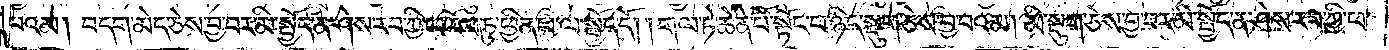བའམ། བདག་མེད་ཅེས་བྱ་བར་མི་སྤྱོད་ན་ཤེས་རབ་ཀྱི་ཕ་རོལ་ཏུ་ཕྱིན་པ་ལ་སྤྱོད་དོ། །གལ་ཏེ་ཆེན་པོ་སྟོང་པ་ཉིད་སྡུག་ཅེས་བྱ་བའམ། མི་སྡུག་ཅེས་བྱ་བར་མི་སྤྱོད་ན་ཤེས་རབ་ཀྱི་ཕ་
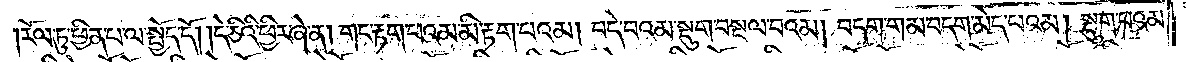རོལ་ཏུ་ཕྱིན་པ་ལ་སྤྱོད་དོ། །དེ་ཅིའི་ཕྱིར་ཞེ་ན། གང་རྟག་པའམ་མི་རྟག་པའམ། བདེ་བའམ་སྡུག་བསྔལ་བའམ། བདག་གམ་བདག་མེད་པའམ། སྡུག་པའམ་
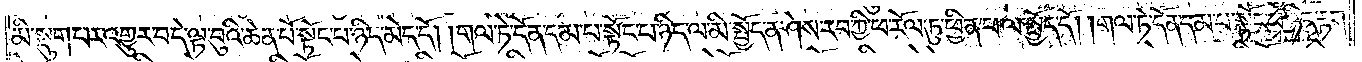མི་སྡུག་པར་འགྱུར་བ་དེ་ལྟ་བུའི་ཆེན་པོ་སྟོང་པ་ཉིད་མེད་དོ། །གལ་ཏེ་དོན་དམ་པ་སྟོང་པ་ཉིད་ལ་མི་སྤྱོད་ན་ཤེས་རབ་ཀྱི་ཕ་རོལ་ཏུ་ཕྱིན་པ་ལ་སྤྱོད་དོ། །གལ་ཏེ་དོན་དམ་པ་སྟོང་པ་ཉིད་རྟག་
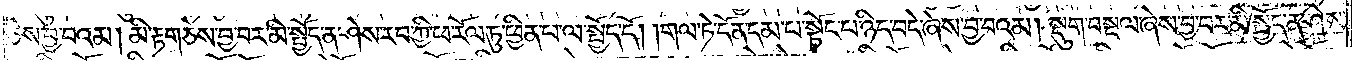ཅེས་བྱ་བའམ། མི་རྟག་ཅེས་བྱ་བར་མི་སྤྱོད་ན་ཤེས་རབ་ཀྱི་ཕ་རོལ་ཏུ་ཕྱིན་པ་ལ་སྤྱོད་དོ། །གལ་ཏེ་དོན་དམ་པ་སྟོང་པ་ཉིད་བདེ་ཞེས་བྱ་བའམ། སྡུག་བསྔལ་ཞེས་བྱ་བར་མི་སྤྱོད་ན་ཤེས་
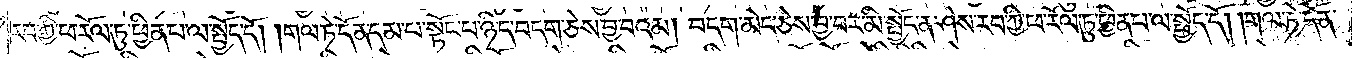རབ་ཀྱི་ཕ་རོལ་ཏུ་ཕྱིན་པ་ལ་སྤྱོད་དོ། །གལ་ཏེ་དོན་དམ་པ་སྟོང་པ་ཉིད་བདག་ཅེས་བྱ་བའམ། བདག་མེད་ཅེས་བྱ་བར་མི་སྤྱོད་ན་ཤེས་རབ་ཀྱི་ཕ་རོལ་ཏུ་ཕྱིན་པ་ལ་སྤྱོད་དོ། །གལ་ཏེ་དོན་
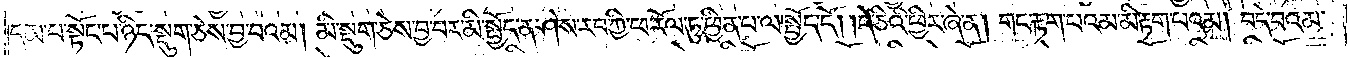དམ་པ་སྟོང་པ་ཉིད་སྡུག་ཅེས་བྱ་བའམ། མི་སྡུག་ཅེས་བྱ་བར་མི་སྤྱོད་ན་ཤེས་རབ་ཀྱི་ཕ་རོལ་ཏུ་ཕྱིན་པ་ལ་སྤྱོད་དོ། །དེ་ཅིའི་ཕྱིར་ཞེ་ན། གང་རྟག་པའམ་མི་རྟག་པའམ། བདེ་བའམ་
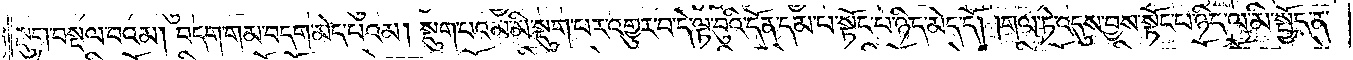སྡུག་བསྔལ་བའམ། བདག་གམ་བདག་མེད་པའམ། སྡུག་པའམ་མི་སྡུག་པར་འགྱུར་བ་དེ་ལྟ་བུའི་དོན་དམ་པ་སྟོང་པ་ཉིད་མེད་དོ། །གལ་ཏེ་འདུས་བྱས་སྟོང་པ་ཉིད་ལ་མི་སྤྱོད་ན་
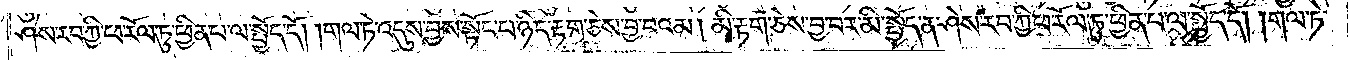ཤེས་རབ་ཀྱི་ཕ་རོལ་ཏུ་ཕྱིན་པ་ལ་སྤྱོད་དོ། །གལ་ཏེ་འདུས་ཏེ་བྱས་སྟོང་པ་ཉིད་རྟག་ཅེས་བྱ་བའམ། མི་རྟག་ཅེས་བྱ་བར་མི་སྤྱོད་ན་ཤེས་རབ་ཀྱི་ཕ་རོལ་ཏུ་ཕྱིན་པ་ལ་སྤྱོད་དོ། །གལ་ཏེ་
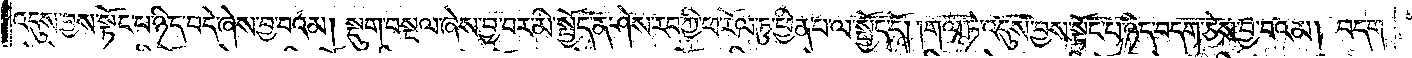འདུས་བྱས་སྟོང་པ་ཉིད་བདེ་ཞེས་བྱ་བའམ། སྡུག་བསྔལ་ཞེས་བྱ་བར་མི་སྤྱོད་ན་ཤེས་རབ་ཀྱི་ཕ་རོལ་ཏུ་ཕྱིན་པ་ལ་སྤྱོད་དོ། །གལ་ཏེ་འདུས་བྱས་སྟོང་པ་ཉིད་བདག་ཅེས་བྱ་བའམ། བདག་
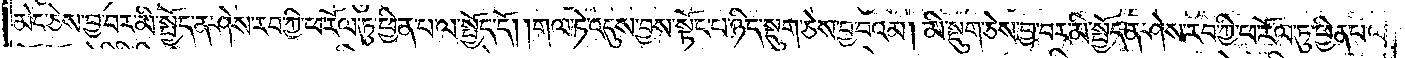མེད་ཅེས་བྱ་བར་མི་སྤྱོད་ན་ཤེས་རབ་ཀྱི་ཕ་རོལ་ཏུ་ཕྱིན་པ་ལ་སྤྱོད་དོ། །གལ་ཏེ་འདུས་བྱས་སྟོང་པ་ཉིད་སྡུག་ཅེས་བྱ་བའམ། མི་སྡུག་ཅེས་བྱ་བར་མི་སྤྱོད་ན་ཤེས་རབ་ཀྱི་ཕ་རོལ་ཏུ་ཕྱིན་པ་ལ་
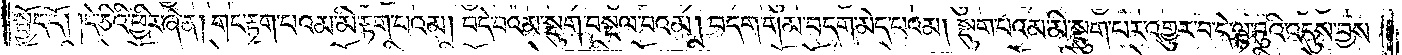སྤྱོད་དོ། །དེ་ཅིའི་ཕྱིར་ཞེ་ན། གང་རྟག་པའམ་མི་རྟག་པའམ། བདེ་བའམ་སྡུག་བསྔལ་བའམ། བདག་གམ་བདག་མེད་པའམ། སྡུག་པའམ་མི་སྡུག་པར་འགྱུར་བ་དེ་ལྟ་བུའི་འདུས་བྱས་
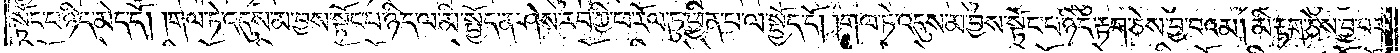སྟོང་པ་ཉིད་མེད་དོ། །གལ་ཏེ་འདུས་མ་བྱས་སྟོང་པ་ཉིད་ལ་མི་སྤྱོད་ན་ཤེས་རབ་ཀྱི་ཕ་རོལ་ཏུ་ཕྱིན་པ་ལ་སྤྱོད་དོ། །གལ་ཏེ་འདུས་མ་བྱས་སྟོང་པ་ཉིད་རྟག་ཅེས་བྱ་བའམ། མི་རྟག་ཅེས་བྱ་བར་
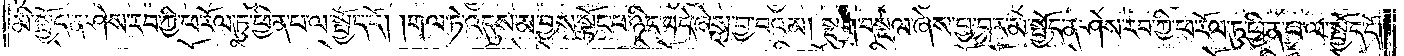མི་སྤྱོད་ན་ཤེས་རབ་ཀྱི་ཕ་རོལ་ཏུ་ཕྱིན་པ་ལ་སྤྱོད་དོ། །གལ་ཏེ་འདུས་མ་བྱས་སྟོང་པ་ཉིད་བདེ་ཞེས་བྱ་བའམ། སྡུག་བསྔལ་ཞེས་བྱ་བར་མི་སྤྱོད་ན་ཤེས་རབ་ཀྱི་ཕ་རོལ་ཏུ་ཕྱིན་པ་ལ་སྤྱོད་དོ། །
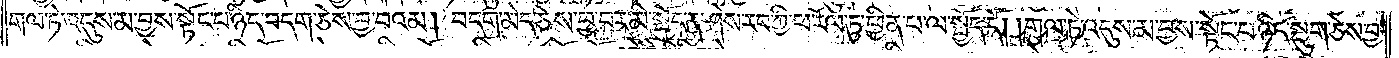གལ་ཏེ་འདུས་མ་བྱས་སྟོང་པ་ཉིད་བདག་ཅེས་བྱ་བའམ། བདག་མེད་ཅེས་བྱ་བར་མི་སྤྱོད་ན་ཤེས་རབ་ཀྱི་ཕ་རོལ་ཏུ་ཕྱིན་པ་ལ་སྤྱོད་དོ། །གལ་ཏེ་འདུས་མ་བྱས་སྟོང་པ་ཉིད་སྡུག་ཅེས་བྱ་
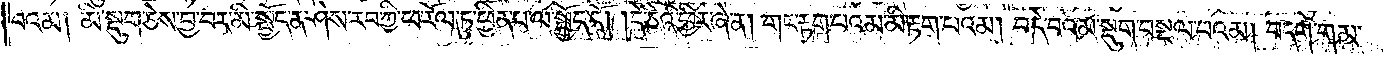བའམ། མི་སྡུག་ཅེས་བྱ་བར་མི་སྤྱོད་ན་ཤེས་རབ་ཀྱི་ཕ་རོལ་ཏུ་ཕྱིན་པ་ལ་སྤྱོད་དོ། །དེ་ཅིའི་ཕྱིར་ཞེ་ན། གང་རྟག་པའམ་མི་རྟག་པའམ། བདེ་བའམ་སྡུག་བསྔལ་བའམ། བདག་གམ་
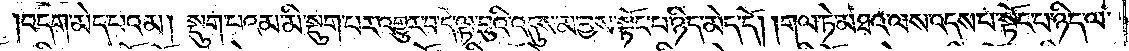བདག་མེད་པའམ། སྡུག་པའམ་མི་སྡུག་པར་འགྱུར་བ་དེ་ལྟ་བུའི་འདུས་མ་བྱས་སྟོང་པ་ཉིད་མེད་དོ། །གལ་ཏེ་མཐའ་ལས་འདས་པ་སྟོང་པ་ཉིད་ལ་
